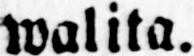walita.
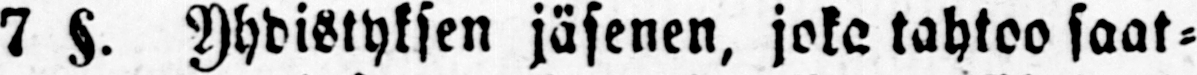7 §. Yhdistyksen jäsenen, joka tahtoo saat-
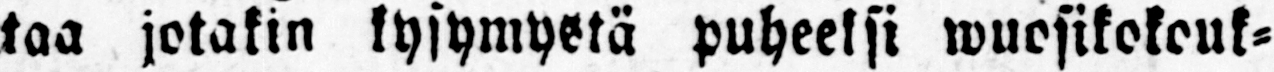taa jotakin kysymystä puheeksi wuosikokouk-
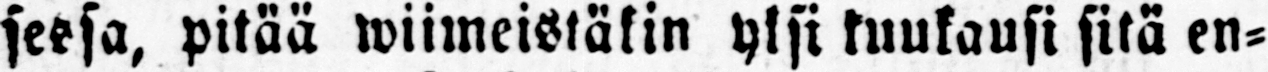seesa, pitää wiimeistäkin yksi kuukausi sitä en-
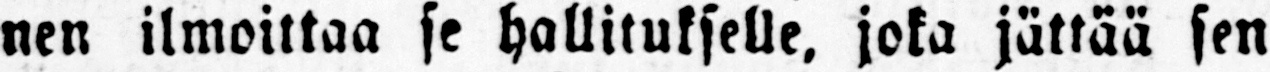nen ilmoittaa se hallitukselle, joka jättää sen
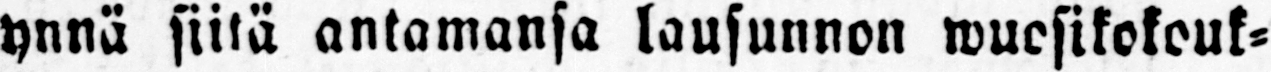ynnä siitä antamansa lausunnon wuosikokouk-
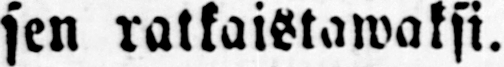sen ratkaistawaksi.
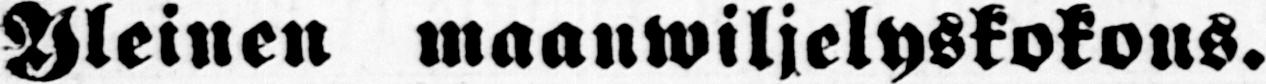Yleinen maanwiljelyskokous.
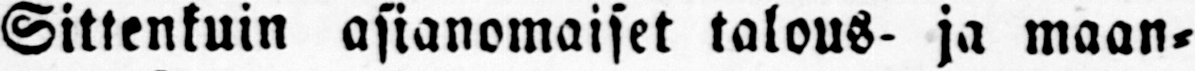Sittenkuin asianomaiset talous- ja maan-
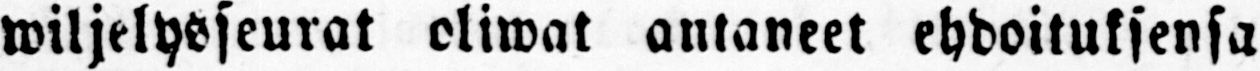wiljelysseurat oliwat antaneet ehdoituksensa
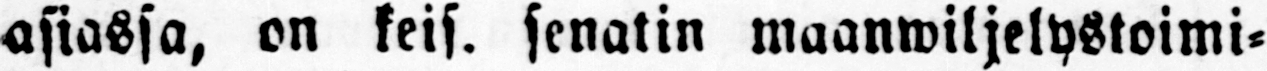asiassa, on keis. senatin maanwiljelystoimi-
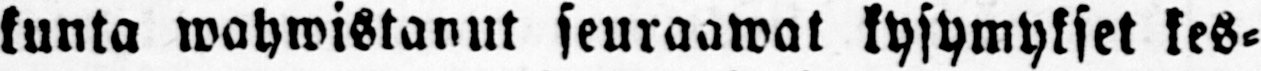kunta wahwistanut seuraawat kysymykset kes-
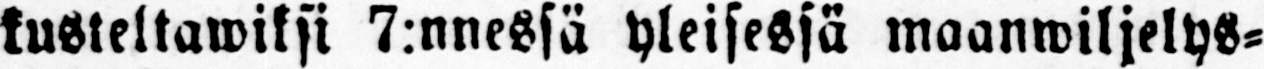kusteltawiksi 7:nnessä yleisessä maanwiljelys-
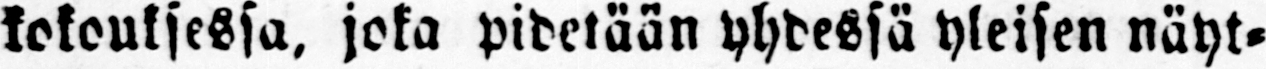kokeuksessa, joka pidetään yhdessä yleisen näyt-
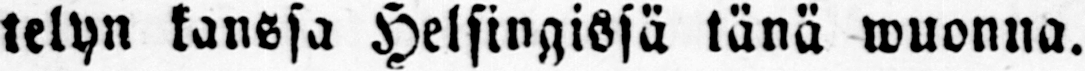telyn kanssa Helsingissä tänä wuonna.
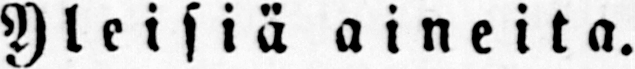Yleisiä aineita.
